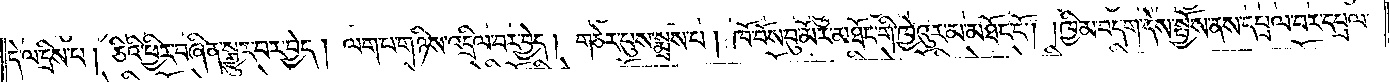དེ་ལ་དྲིས་པ། ཅིའི་ཕྱིར་བཞིན་སྒྱུར་བར་བྱེད། ལག་པ་གཉིས་འདྲིལ་བར་བྱེད། གཅེར་པུས་སྨྲས་པ། ཁོ་བོས་བུ་མོར་མཐོང་གི་ཁྱེའུར་མ་མཐོང་ངོ༌། །ཁྱིམ་བདག་དེས་སྤྱོས་ནས་དཔྲལ་བར་དཔྲལ་
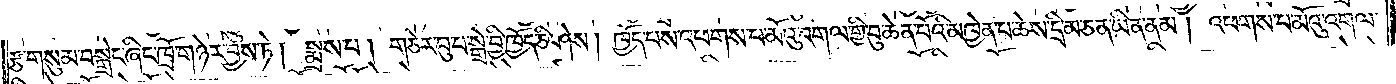རྩ་གསུམ་བསྒྲེང་ཞིང་ཁྲོ་གཉེར་བྱས་ཏེ། སྨྲས་པ། གཅེར་བུ་པ་སྒྲེ་བྱི་ཁྱོད་ཅི་ཤེས། ཁྱོད་པས་འཕགས་པ་མོའུ་འགལ་གྱི་བུ་ཆེན་པོའི་མཁྱེན་པ་ཆེས་དྲི་མ་ཅན་ཡིན་ནམ། འཕགས་པ་མོའུ་འགལ་
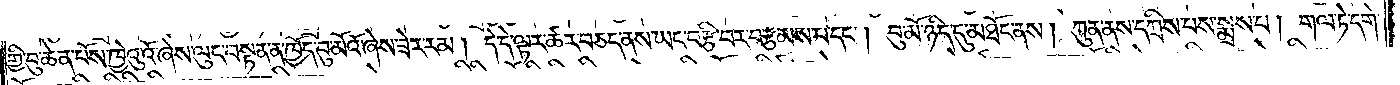གྱི་བུ་ཆེན་པོས་ཁྱེའུའོ་ཞེས་ལུང་བསྟན་ན་ཁྱོད་བུ་མོའོ་ཞེས་ཟེར་རམ། དེ་དེ་ལྟར་ཚར་བཅད་ནས་ཡང་བརྩི་བར་བརྩམས་པ་དང༌། བུ་མོ་ཉིད་དུ་མཐོང་ནས། ཀུན་ནས་དཀྲིས་པས་སྨྲས་པ། གལ་ཏེ་དགེ་
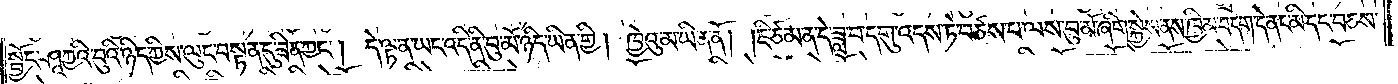སྦྱོང་ཤཱཀྱའི་བུའི་ཉིད་ཀྱིས་ལུང་བསྟན་དུ་ཟིན་ཀྱང༌། དེ་ལྟ་ན་ཡང་འདི་ནི་བུ་མོ་ཉིད་ཡིན་གྱི། ཁྱེའུ་མ་ཡིན་ནོ། །ཇི་ཙམ་ན་དེ་ཟླ་བ་དགུ་འདས་ཏེ་བཙས་པ་ལས་བུ་མོ་ཞིག་སྐྱེས་ནས་ཁྱིམ་བདག་དེ་ནང་མི་དང་བཅས་
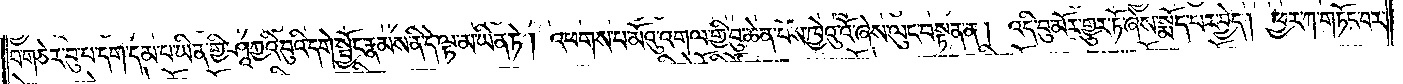པ་གཅེར་བུ་པ་དག་དམ་པ་ཡིན་གྱི་ཤཱཀྱའི་བུའི་དགེ་སྦྱོང་རྣམས་ནི་དེ་ལྟ་མ་ཡིན་ཏེ། འཕགས་པ་མོའུ་འགལ་གྱི་བུ་ཆེན་པོས་ཁྱེའུ་འོ་ཞེས་ལུང་བསྟན་ན། འདི་བུ་མོར་གྱུར་ཏོ་ཞེས་སྨོད་པར་བྱེད། ཕྱར་ཀ་གཏོང་བར་
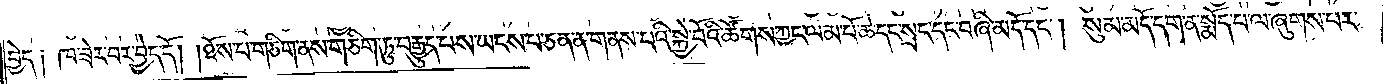བྱེད༑ ཁ་ཟེར་བར་བྱེད་དོ། །ཐོས་པ་གཅིག་ནས་གཅིག་ཏུ་བརྒྱུད་པས་ཡངས་པ་ཅན་ན་གནས་པའི་སྐྱེ་བོའི་ཚོགས་ཀྱང་ལམ་པོ་ཆེ་དང་སྲང་དང་བཞི་མདོ་དང༌། སུམ་མདོ་དག་ན་སྨོད་པ་ལ་ཞུགས་པར་
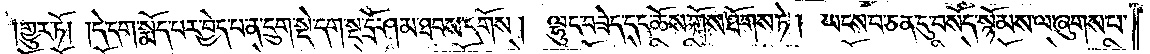གྱུར་ཏོ། །དེ་དག་སྨོད་པར་བྱེད་པ་ན་དྲུག་སྡེ་དག་སྔ་དྲོ་ཤམ་ཐབས་དགོས། ལྷུང་བཟེད་དང་ཆོས་གོས་ཐོགས་ཏེ། ཡངས་པ་ཅན་དུ་བསོད་སྙོམས་ལ་ཞུགས་པ་
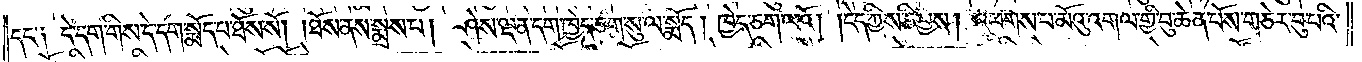དང་༑ དེ་དག་གིས་དེ་དག་སྨོད་པ་ཐོས་སོ། །ཐོས་ནས་སྨྲས་པ། ཤེས་ལྡན་དག་ཁྱེད་ཅག་སུ་ལ་སྨོད། ཁྱེད་ཅག་ལའོ། །ངེད་ཀྱིས་ཅི་བྱས། འཕགས་པ་མོའུ་འགལ་གྱི་བུ་ཆེན་པོས་གཅེར་བུ་པའི་
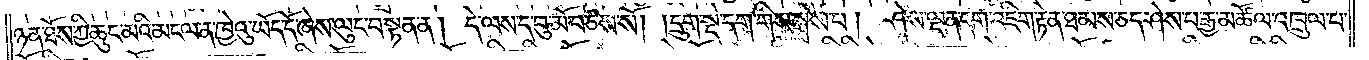ཉན་ཐོས་ཀྱི་ཆུང་མའི་མངལ་ན་ཁྱེའུ་ཡོད་དོ་ཞེས་ལུང་བསྟན་ན། དེ་ལས་ད་བུ་མོ་བཙས་སོ། །དྲུག་སྡེ་དག་གིས་སྨྲས་པ། ཤེས་ལྡན་དག་འཇིག་རྟེན་ཐམས་ཅད་ཤེས་པ་རྒྱ་མཚོ་ལ་འཁྲུལ་པ་
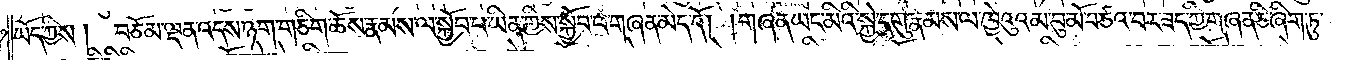ཡོད་ཀྱིས། བཅོམ་ལྡན་འདས་ཉག་གཅིག་ཆོས་རྣམས་ལ་སྐྱོབ་པ་ཡིན་གྱིས་སྐྱོབ་པ་གཞན་མེད་དོ། །གཞན་ཡང་མིའི་སྐྱེ་དགུ་རྣམས་ལ་ཁྱེའུའམ་བུ་མོ་བཙའ་བར་ཟད་ཀྱི་གཞན་ཅི་ཞིག་ཏུ་
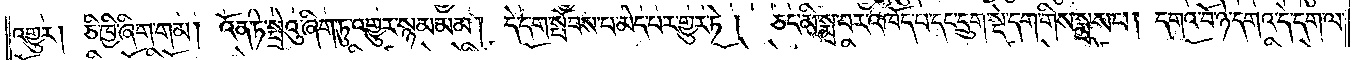འགྱུར། ཅི་ཁྱི་ཞིག་གམ། འོན་ཏེ་སྤྲེའུ་ཞིག་ཏུ་འགྱུར་སྙམ་མམ། དེ་དག་སྤོབས་པ་མེད་པར་གྱུར་ཏེ། ཅང་མི་སྨྲ་བར་འཁོད་པ་དང་དྲུག་སྡེ་དག་གིས་སྨྲས་པ། དགའ་བོ་ཉེ་དགའ་དེ་དག་ལ་
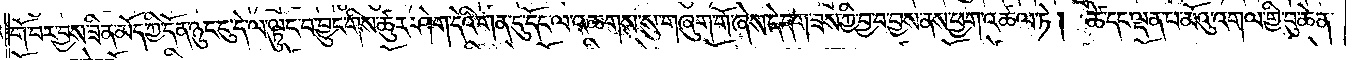གོ་བར་བྱས་ཟིན་མོད་ཀྱི་དོན་ཉུང་ངུ་དེ་ལ་ལྟུང་བ་བྱུང་གིས་ཚུར་ཤེག་དེའི་གན་དུ་དོང་ལ་འཆགས་སུ་གཞུག་གོ་ཞེས་དེ་དག་ཟས་ཀྱི་བྱ་བ་བྱས་ནས་ཕྱག་འཚལ་ཏེ། ཚེ་དང་ལྡན་པ་མོའུ་འགལ་གྱི་བུ་ཆེན་
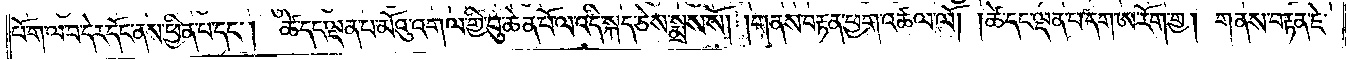པོ་ག་ལ་བ་དེར་དོང་ནས་ཕྱིན་པ་དང༌།  ཚེ་དང་ལྡན་པ་མོའུ་འགལ་གྱི་བུ་ཆེན་པོ་ལ་འདི་སྐད་ཅེས་སྨྲས་སོ། །གནས་བརྟན་ཕྱག་འཚལ་ལོ། །ཚེ་དང་ལྡན་པ་དག་ཨ་རོག་གྱ། གནས་བརྟན་ཇེ་
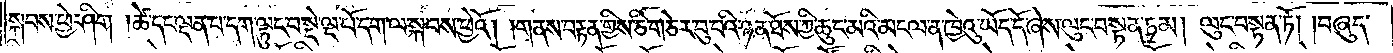སྐབས་ཕྱེ་ཤིག །ཚེ་དང་ལྡན་པ་དག་ལྟུང་བ་སྡེ་ལྔ་པོ་དག་ལ་སྐབས་ཕྱེའོ། །གནས་བརྟན་གྱིས་ཅི་གཅེར་བུ་པའི་ཉན་ཐོས་ཀྱི་ཆུང་མའི་མངལ་ན་ཁྱེའུ་ཡོད་དོ་ཞེས་ལུང་བསྟན་ཏམ། ལུང་བསྟན་ཏོ། །བཞུད་
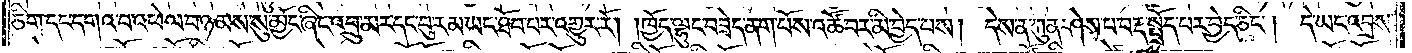ཅིག་དང་དགའ་བ་འཕེལ་བ་ཉམས་སུ་མྱོང་ཞིང་འབྲུ་མར་དང་བུ་རམ་ཡང་ཐོབ་པར་འགྱུར་རོ། །ཁྱོད་ལྷུང་བཟེད་ནག་པོས་འཚོ་བར་མི་བྱེད་པས། དེས་ན་ཀུན་ཤེས་པ་བརྡ་སྤྲོད་པར་བྱེད་ཅིང༌། དེ་ཡང་འབྲས་
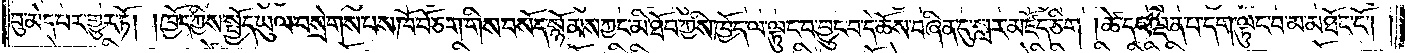བུ་མེད་པར་གྱུར་ཏོ། །ཁྱོད་ཀྱིས་སྤྱོད་ཡུལ་བསྲེགས་པས་ཁོ་བོ་ཅག་གིས་བསོད་སྙོམས་ཀྱང་མི་ཐོབ་ཀྱིས་ཁྱོད་ལ་ལྟུང་བ་བྱུང་བ་དེ་ཆོས་བཞིན་དུ་སླར་མཛོད་ཅིག །ཚེ་དང་ལྡན་པ་དག་ལྟུང་བ་མ་མཐོང་ངོ༌། །
